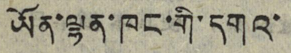ཡོན་ལྷན་ཁང་གི་དགའ་
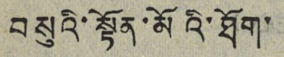བསུའི་སྟོན་མོའི་ཐོག་
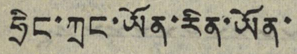ཧྲིང་ཀྲང་ཡོན་རིན་ཡོན་
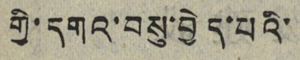གྱི་དགའ་བསུ་བྱེད་པའི་
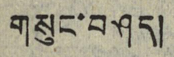གསུང་བཤད།
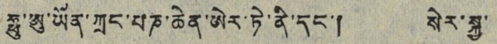ཧྥུ་ཨུ་ཡོན་ཀྲང་པཎ་ཆེན་ཨེར་ཏེ་ནི་དང་། སེར་སྐྱ་
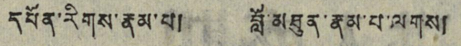དཔོན་རིགས་རྣམ་པ། བློ་མཐུན་རྣམ་པ་ལགས།
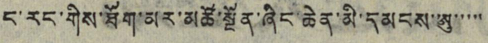ང་རང་གིས་ཐོག་མར་མཚོ་སྔོན་ཞིང་ཆེན་མི་དམངས་ཨུ་་་་་
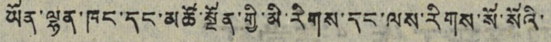ཡོན་ལྷན་ཁང་དང་མཚོ་སྔོན་གྱི་མི་རིགས་དང་ལས་རིགས་སོ་སོའི་
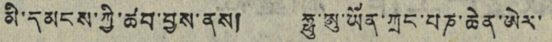མི་དམངས་ཀྱི་ཚབ་བྱས་ནས། ཧྥུ་ཨུ་ཡོན་ཀྲང་པཎ་ཆེན་ཨེར་
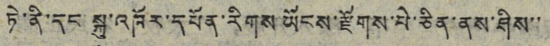ཏེ་ནི་དང་སྐུ་འཁོར་དཔོན་རིགས ཡོངས་རྫོགས་པེ་ཅིན་ནས་ཤིས་་་
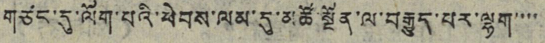གཙང་དུ་ལོག་པའི་ཕེབས་ལམ་དུ་མཚོ་སྔོན་ལ་བརྒྱུད་པར་ལྷག་་་་་
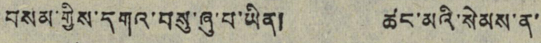བསམ་གྱིས་དགའ་བསུ་ཞུ་བ་ཡིན། ཚང་མའི་སེམས་ན་
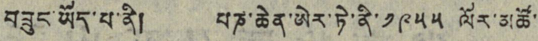བཟུང་ཡོད་པ་ནི། པཎ་ཆེན་ཨེར་ཏེ་ནི་ ༡༩༥༥ ལོར་མཚོ་
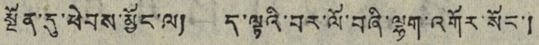སྔོན་དུ་ཕེབས་མྱོང་ལ། ད་ལྟའི་བར་ལོ་བཞི་ལྷག་འགོར་སོང་།
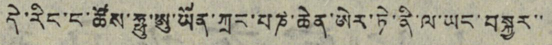དེ་རིང་ང་ཚོས་ཧྥུ་ཨུ་ཡོན་ཀྲང་པཎ་ཆེན་ཨེར་ཏེ་ནི་ལ་ཡང་བསྐྱར་་
